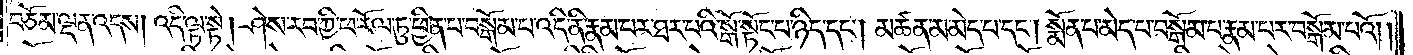བཅོམ་ལྡན་འདས། འདི་ལྟ་སྟེ། ཤེས་རབ་ཀྱི་ཕ་རོལ་ཏུ་ཕྱིན་པ་བསྒོམ་པ་འདི་ནི་རྣམ་པར་ཐར་པའི་སྒོ་སྟོང་པ་ཉིད་དང༌། མཚན་མ་མེད་པ་དང༌། སྨོན་པ་མེད་པ་བསྒོམ་པ་རྣམ་པར་བསྒོམ་པའོ༎
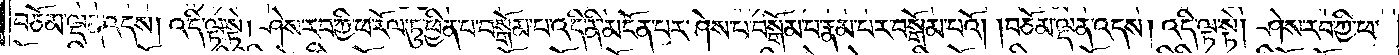བཅོམ་ལྡན་འདས། འདི་ལྟ་སྟེ། ཤེས་རབ་ཀྱི་ཕ་རོལ་ཏུ་ཕྱིན་པ་བསྒོམ་པ་འདི་ནི་མངོན་པར་ཤེས་པ་བསྒོམ་པ་རྣམ་པར་བསྒོམ་པའོ། །བཅོམ་ལྡན་འདས། འདི་ལྟ་སྟེ། ཤེས་རབ་ཀྱི་ཕ་
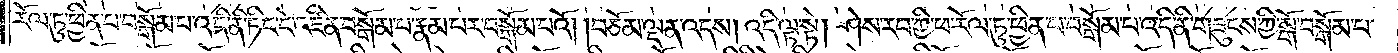རོལ་ཏུ་ཕྱིན་པ་བསྒོམ་པ་འདི་ནི་ཏིང་ངེ་འཛིན་བསྒོམ་པ་རྣམ་པར་བསྒོམ་པའོ། །བཅོམ་ལྡན་འདས། འདི་ལྟ་སྟེ། ཤེས་རབ་ཀྱི་ཕ་རོལ་ཏུ་ཕྱིན་པ་བསྒོམ་པ་འདི་ནི་གཟུངས་ཀྱི་སྒོ་བསྒོམ་པ་
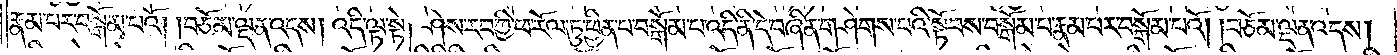རྣམ་པར་བསྒོམ་པའོ། །བཅོམ་ལྡན་འདས། འདི་ལྟ་སྟེ། ཤེས་རབ་ཀྱི་ཕ་རོལ་ཏུ་ཕྱིན་པ་བསྒོམ་པ་འདི་ནི་དེ་བཞིན་གཤེགས་པའི་སྟོབས་བསྒོམ་པ་རྣམ་པར་བསྒོམ་པའོ། །བཅོམ་ལྡན་འདས།
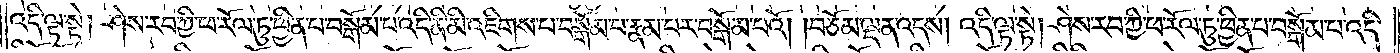འདི་ལྟ་སྟེ། ཤེས་རབ་ཀྱི་ཕ་རོལ་ཏུ་ཕྱིན་པ་བསྒོམ་པ་འདི་ནི་མི་འཇིགས་པ་བསྒོམ་པ་རྣམ་པར་བསྒོམ་པའོ། །བཅོམ་ལྡན་འདས། འདི་ལྟ་སྟེ། ཤེས་རབ་ཀྱི་ཕ་རོལ་ཏུ་ཕྱིན་པ་བསྒོམ་པ་འདི་
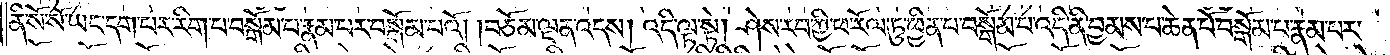ནི་སོ་སོ་ཡང་དག་པར་རིག་པ་བསྒོམ་པ་རྣམ་པར་བསྒོམ་པའོ། །བཅོམ་ལྡན་འདས། འདི་ལྟ་སྟེ། ཤེས་རབ་ཀྱི་ཕ་རོལ་ཏུ་ཕྱིན་པ་བསྒོམ་པ་འདི་ནི་བྱམས་པ་ཆེན་པོ་བསྒོམ་པ་རྣམ་པར་
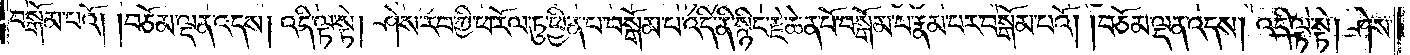བསྒོམ་པའོ། །བཅོམ་ལྡན་འདས། འདི་ལྟ་སྟེ། ཤེས་རབ་ཀྱི་ཕ་རོལ་ཏུ་ཕྱིན་པ་བསྒོམ་པ་འདི་ནི་སྙིང་རྗེ་ཆེན་པོ་བསྒོམ་པ་རྣམ་པར་བསྒོམ་པའོ། །བཅོམ་ལྡན་འདས། འདི་ལྟ་སྟེ། ཤེས་
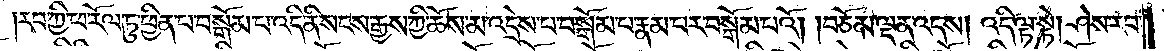རབ་ཀྱི་ཕ་རོལ་ཏུ་ཕྱིན་པ་བསྒོམ་པ་འདི་ནི་སངས་རྒྱས་ཀྱི་ཆོས་མ་འདྲེས་པ་བསྒོམ་པ་རྣམ་པར་བསྒོམ་པའོ། །བཅོམ་ལྡན་འདས། འདི་ལྟ་སྟེ། ཤེས་རབ་
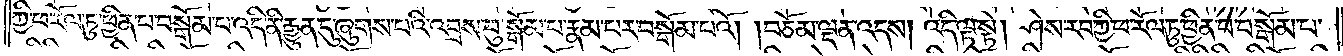ཀྱི་ཕ་རོལ་ཏུ་ཕྱིན་པ་བསྒོམ་པ་འདི་ནི་རྒྱུན་དུ་ཞུགས་པའི་འབྲས་བུ་བསྒོམ་པ་རྣམ་པར་བསྒོམ་པའོ། །བཅོམ་ལྡན་འདས། འདི་ལྟ་སྟེ། ཤེས་རབ་ཀྱི་ཕ་རོལ་ཏུ་ཕྱིན་པ་བསྒོམ་པ་
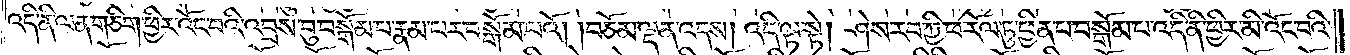འདི་ནི་ལན་གཅིག་ཕྱིར་འོང་བའི་འབྲས་བུ་བསྒོམ་པ་རྣམ་པར་བསྒོམ་པའོ། །བཅོམ་ལྡན་འདས། འདི་ལྟ་སྟེ། ཤེས་རབ་ཀྱི་ཕ་རོལ་ཏུ་ཕྱིན་པ་བསྒོམ་པ་འདི་ནི་ཕྱིར་མི་འོང་བའི་
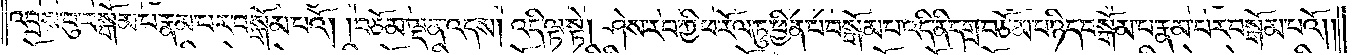འབྲས་བུ་བསྒོམ་པ་རྣམ་པར་བསྒོམ་པའོ། །བཅོམ་ལྡན་འདས། འདི་ལྟ་སྟེ། ཤེས་རབ་ཀྱི་ཕ་རོལ་ཏུ་ཕྱིན་པ་བསྒོམ་པ་འདི་ནི་དགྲ་བཅོམ་པ་ཉིད་བསྒོམ་པ་རྣམ་པར་བསྒོམ་པའོ། །
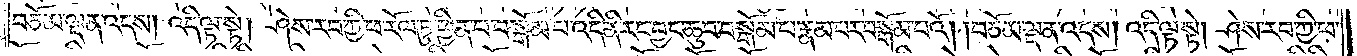བཅོམ་ལྡན་འདས། འདི་ལྟ་སྟེ། ཤེས་རབ་ཀྱི་ཕ་རོལ་ཏུ་ཕྱིན་པ་བསྒོམ་པ་འདི་ནི་རང་བྱང་ཆུབ་བསྒོམ་པ་རྣམ་པར་བསྒོམ་པའོ། །བཅོམ་ལྡན་འདས། འདི་ལྟ་སྟེ། ཤེས་རབ་ཀྱི་ཕ་
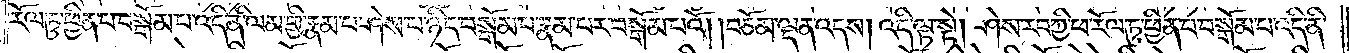རོལ་ཏུ་ཕྱིན་པ་བསྒོམ་པ་འདི་ནི་ལམ་གྱི་རྣམ་པ་ཤེས་པ་ཉིད་བསྒོམ་པ་རྣམ་པར་བསྒོམ་པའོ། །བཅོམ་ལྡན་འདས། འདི་ལྟ་སྟེ། ཤེས་རབ་ཀྱི་ཕ་རོལ་ཏུ་ཕྱིན་པ་བསྒོམ་པ་འདི་ནི་
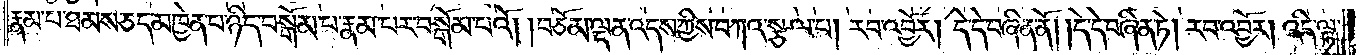རྣམ་པ་ཐམས་ཅད་མཁྱེན་པ་ཉིད་བསྒོམ་པ་རྣམ་པར་བསྒོམ་པའོ། །བཅོམ་ལྡན་འདས་ཀྱིས་བཀའ་སྩལ་པ། རབ་འབྱོར། དེ་དེ་བཞིན་ནོ། །དེ་དེ་བཞིན་ཏེ། རབ་འབྱོར། འདི་ལྟ་
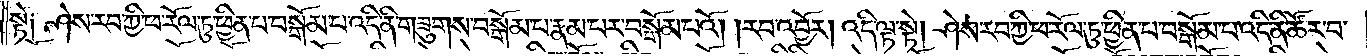སྟེ། ཤེས་རབ་ཀྱི་ཕ་རོལ་ཏུ་ཕྱིན་པ་བསྒོམ་པ་འདི་ནི་གཟུགས་བསྒོམ་པ་རྣམ་པར་བསྒོམ་པའོ། །རབ་འབྱོར། འདི་ལྟ་སྟེ། ཤེས་རབ་ཀྱི་ཕ་རོལ་ཏུ་ཕྱིན་པ་བསྒོམ་པ་འདི་ནི་ཚོར་བ་
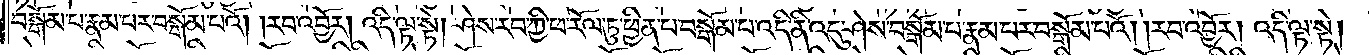བསྒོམ་པ་རྣམ་པར་བསྒོམ་པའོ། །རབ་འབྱོར། འདི་ལྟ་སྟེ། ཤེས་རབ་ཀྱི་ཕ་རོལ་ཏུ་ཕྱིན་པ་བསྒོམ་པ་འདི་ནི་འདུ་ཤེས་བསྒོམ་པ་རྣམ་པར་བསྒོམ་པའོ། །རབ་འབྱོར། འདི་ལྟ་སྟེ།
